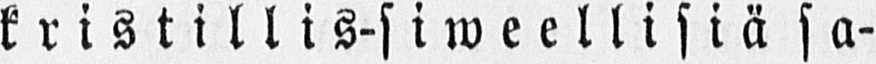kristillis-siweellisiä sa-
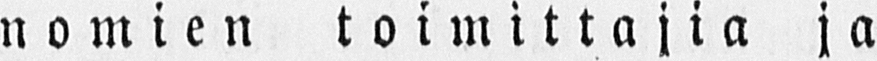nomien toimittajia ja
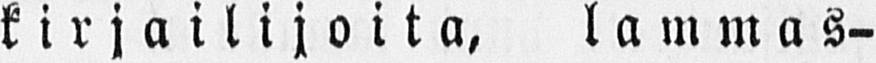kirjailijoita, lammas-
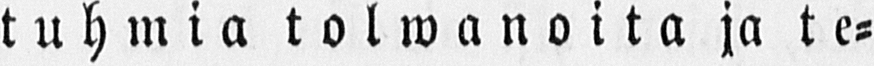tuhmia tolwanoita ja te-
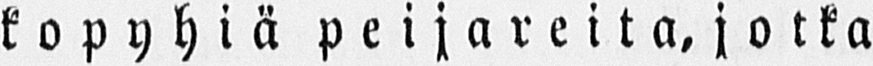kopyhiä peijareita, jotka
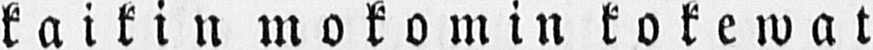kaikin mokomin kokewat
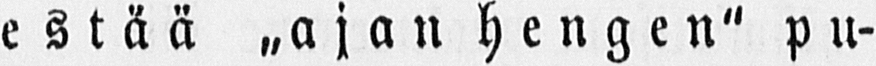estää „ajan hengen" pu-
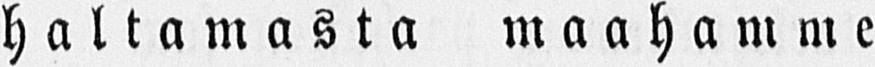haltamasta maahamme
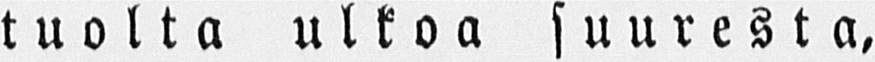tuolta ulkoa suuresta,
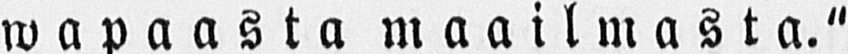wapaasta maailmasta."
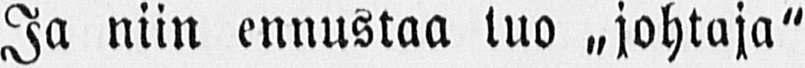Ja niin ennustaa tuo „johtaja"
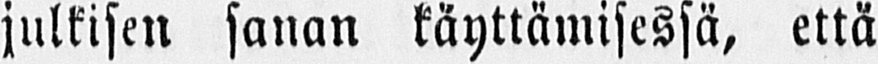julkisen sanan käyttämisessä, että
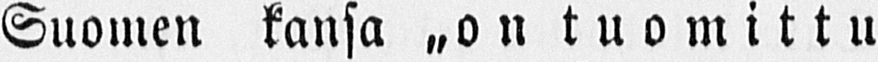Suomen kansa „on tuomittu
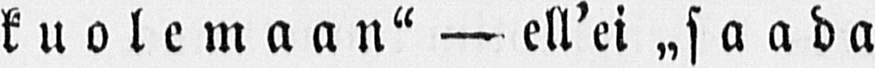kuolemaan" — ell'ei ˶saada
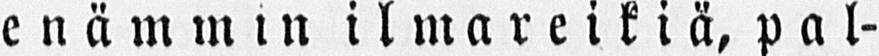enämmin ilmareikiä, pa l-
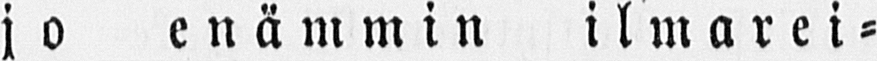jo enämmin ilmarei-
